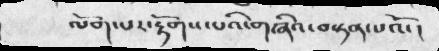ལོག་པར་རྟོགས་པའི་གཞིའ་བསྟན་པའོ་།
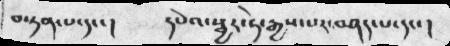བསྟན་པ་དང་།    དཔེའ་སྦྱར་ཏེ་རྒྱས་པར་བཤད་པ་དང་།
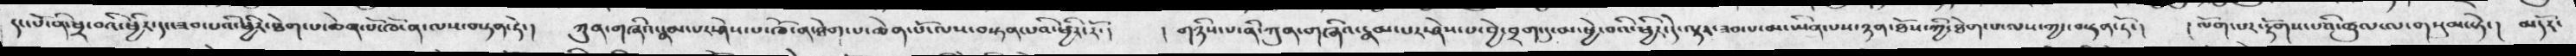དང་པོ་ནི་ཕྲ་བའི་ཕྱིར་དང་ཟབ་པའི་ཕྱིར་ཐེག་པ་ཆེན་པོ་ཁོ་ན་ལས་བསྟན་ཏེ་།   ཀུན་གཞིའ་རྣམ་པར་ཤེས་པ་ཁོ་ན་ཐེག་པ་ཆེན་པོ་ལས་བསྟན་པའི་ཕྱིར་རོ་།   ། གཉིས་པ་ཀུན་གཞིའ་རྣམ་པར་ཤེས་པ་བྱེ་བྲག་དུ་མ་ཕྱེ་བའི་ཕྱིར་དེ་ལྟར་ཟབ་པ་མ་ཡིན་པས་ཉན་ཐོས་ཀྱི་ཐེག་པ་ལས་ཀྱང་བསྟན་ཏོ་།   ། ལོག་པར་རྟོགས་པའི་ཚུལ་ལ་གསུམ་སྟེ་།   མདོར་
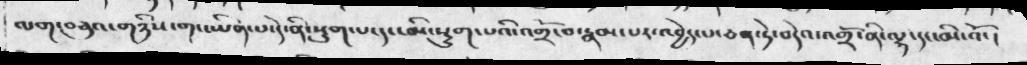ལག་བཅུའ་གཉིས་གང་ཡིན་དེ་ནི་སྡུག་པ་དང་མི་སྡུག་པའི་འགྲོ་བ་རྣམ་པར་འབྱེད་པ་ཅན་དེ་བདེའ་འགྲོ་ནི་ལྷ་དང་མི་འོ་།
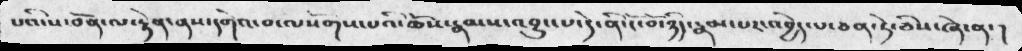པའི་ས་བོན་ལ་རྟེན་ནས་དགེའ་བ་ལསོགས་པའི་ཆོས་རྣམས་འབྱུང་པ་དེ་ནི་ངོ་བོ་ཉིད་རྣམ་པར་འབྱེད་པ་ཅན་ཏེ་ཅིས་ཞེ་ན་།
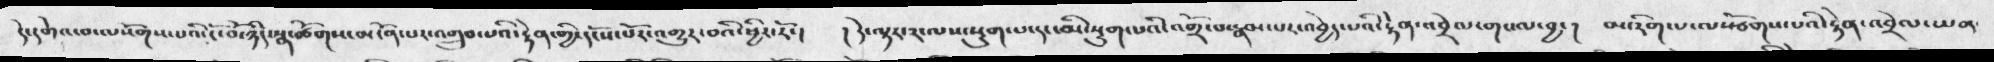དེ་དགེའ་བ་ལསོགས་པའི་ངོ་བོ་ཉིད་སྣ་ཚོགས་མངོན་པར་འགྲུབ་པའི་རྟེན་གྱི་དངོས་པོར་འགྱུར་བའི་ཕྱིར་རོ་།    ། དེ་ལྟར་༢་ལས་སྡུག་པ་དང་མི་སྡུག་པའི་འགྲོ་བ་རྣམ་པར་འབྱེད་པའི་རྟེན་འབྲེལ་གང་ལ་བྱང་།    མ་རིག་པ་ལསོགས་པའི་རྟེན་འབྲེལ་ཡན་
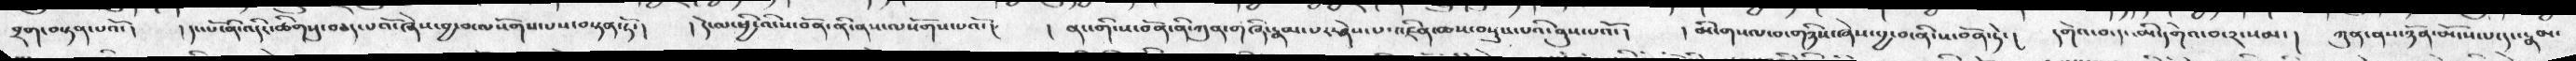བྲག་བསྟན་པའོ་།   །དང་པོ་ནི་འདིར་ཚིགསུ་བཅད་པའོ་ཞེས་བྱ་བ་ལསོགས་པས་བསྟན་ཏོ་།   །དེ་ལ་ཕྱི་འི་ས་བོན་ནི་་ནས་ལསོགས་པའོ་།  །  ནང་གི་ས་བོན་་ནི་ཀུན་གཞི་རྣམ་པར་ཤེས་པ་འཛིན་ཆས་བསྡུས་པའི་ནུས་པའོ་།   །  མི་གསལ་བ་གཉིས་ཞེས་བྱ་བ་ནི་ས་བོན་ཏེ་།  དགེའ་བ་མི་དགེའ་བ་༢སམ་།  ཀུན་ནས་ཉོན་མོངས་པ་དང་སྣམ་
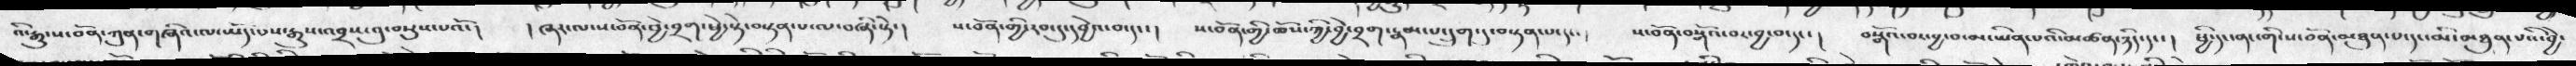འི་རྒྱུ་ས་བོན་ཀུན་གཞིའ་ལ་ཡོད་པས་རྒྱུས་འབྲས་བུ་བསྡུས་པའོ་།   ། ཞར་ལ་ས་བོན་བྱེ་བྲག་ཕྱེ་སྟེ་བསྟན་པ་ལ་བཞི་སྟེ་།   ས་བོན་གྱི་རབ་དུ་དབྱེའ་བ་དང་།   ས་བོན་གྱི་ཆོས་ཀྱི་བྱེ་བྲག་རྣམ་པ་དྲུག་དུ་བསྟན་པ་དང་།   ས་བོན་བསྒོའ་བར་བྱ་བ་དང་།    བསྒོའ་བར་བྱ་བ་མ་ཡིན་པའི་མཚན་ཉིད་དང་།   ཕྱི་དང་ནང་གི་ས་བོན་མཐུན་པ་དང་མི་མཐུན་པའི་བྱེ་
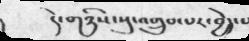དེ་གཉིས་སུ་འགྲུབ་པར་བྱེད་པ
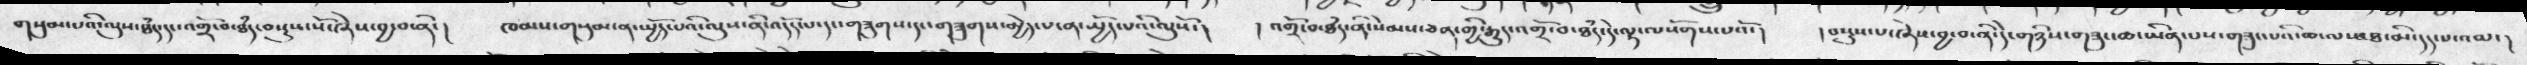གསུམ་པའི་ལུས་ཐཾད་དང་འགྲོ་བ་ཐཾད་བསྡུས་སོ་ཞེས་བྱ་བ་ནི་།   ཁམས་གསུམ་ན་ཡྱོད་པའི་ལུས་ནི་འདོད་པ་དང་གཟུགས་དང་གཟུགས་མྱེད་པ་ན་ཡྱོད་པའི་ལུསོ་།  ། འགྲོ་བ་ཐཾད་ནི་སེམས་ཅན་གྱི་རྒྱུད་འགྲོ་བ་ཐཾད་དེ་ལྟ་ལསོགས་པའོ་།    ། བསྡུས་པ་ཞེས་བྱ་བ་ནི་དེ་གཉིས་གཟུང་ཆ་ཡིན་པས་གཟུང་པའི་ཆ་ལས་ཐ་མི་དད་པ་འམ་།
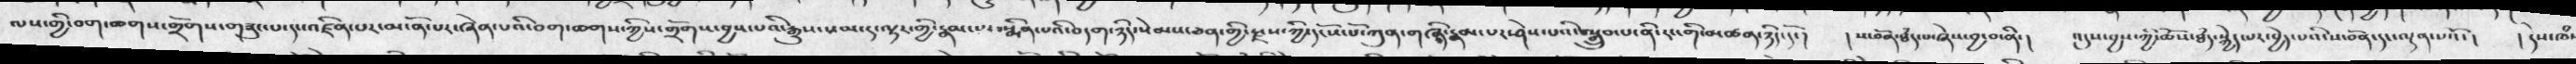ལས་གྱི་བག་ཆགས་གྲོགས་གཟུང་པ་དང་འཛིན་པར་མངོན་པར་ཞེན་པའི་བག་ཆགས་ཀྱིས་གྲོགས་བྱས་པའི་རྒྱུས་སམ་ད་ལྟར་གྱི་རྣམ་པར་སྨིན་པའི་བདག་ཉིད་སེམས་ཅན་གྱི་སྫས་ཀྱི་དངོས་པོ་ཀུན་གཞི་རྣམ་པར་ཤེས་པའི་བསྒྲུབ་པ་ནི་རང་གི་མཚན་ཉིད་དོ་།   ། ས་བོན་ཐཾད་པ་ཞེས་བྱ་བ་ནི་།   འདུས་བྱས་ཀྱི་ཆོས་ཐཾད་སྐྱེད་པར་བྱེད་པའི་བྱེད་པའི་ས་བོན་དང་ལྡན་པའོ་།   ། དེས་ཁཾ་
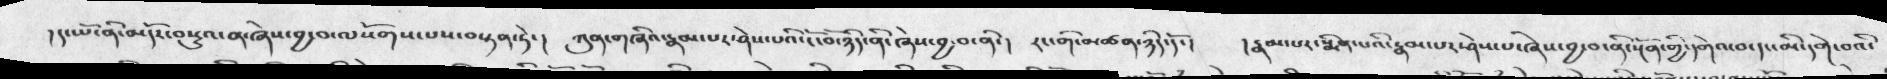། དང་པོ་ནི་མདོར་བསྡུའ་ན་ཞེས་བྱ་བ་ལསོགས་པས་བསྟན་ཏེ་།   ཀུན་གཞིའ་རྣམ་པར་ཤེས་པའི་ངོ་བོ་ཉིད་ནི་ཞེས་བྱ་བ་ནི་།   ། རང་གི་མཚན་ཉིད་དོ་།    ། རྣམ་པར་སྨིན་པའི་རྣམ་པར་ཤེས་པ་ཞེས་བྱ་བ་ནི་སྔོན་གྱི་དགེའ་བ་དང་མི་དགེ་བའི་
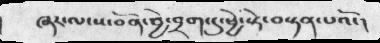ཞར་ལ་ས་བོན་བྱེ་བྲག་དུ་ཕྱེ་སྟེ་བསྟན་པའོ་།
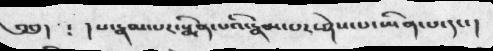༄༅།  ༴   །པ་རྣམ་པར་སྨིན་པའི་རྣམ་པར་ཤེས་པ་ཡིན་པ་དང་།
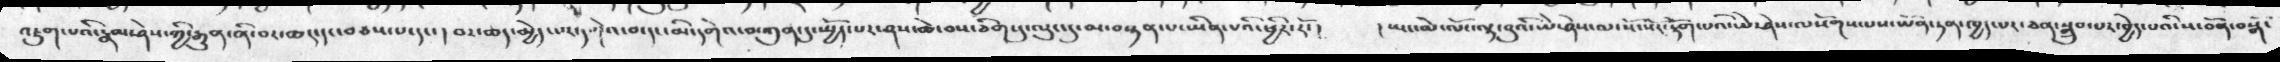འཇུག་པའི་རྣམ་ཤེས་གྱི་རྒྱུན་ནི་བར་ཆད་དང་བཅས་པ་དང་ ། བར་ཆད་མྱེད་པར་དགེའ་བ་དང་མི་དགེའ་བ་ཀུན་དུ་ཡྱོད་པར་ཤེས་ཆེ་བས་ཅིག་དུ་ལུང་མ་བསྟན་པ་ཡིན་པའི་ཕྱིར་རོ་།   ། ཡང་མེ་ལོང་ལྟ་བུའི་ཡེ་ཤེས་ལ་སོ་སོར་རྟོག་པའི་ཡེ་ཤེས་ལསོགས་པས་ཡོན་ཏན་ཁྱད་པར་ཅན་སྒྲུབ་པར་བྱེད་པའི་ས་བོན་བསྒོ་
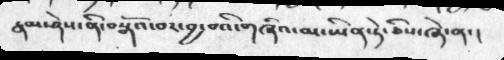རྣམ་ཤེས་ནི་བསྒོའ་བར་བྱ་བའི་གཞིའ་མ་ཡིན་ཏེ་ཅིས་ཞེ་ན་།
